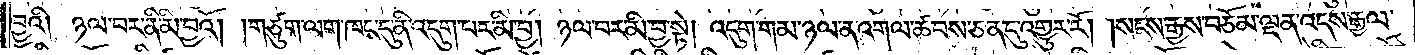བྱའི། ཉལ་བར་ནི་མི་བྱའོ། །གཙུག་ལག་ཁང་དུ་ནི་འདུག་པར་མི་བྱ། ཉལ་བར་མི་བྱ་སྟེ། འདུག་གམ་ཉལ་ན་འགལ་ཚབས་ཅན་དུ་འགྱུར་རོ།    །སངས་རྒྱས་བཅོམ་ལྡན་འདས་རྒྱལ་
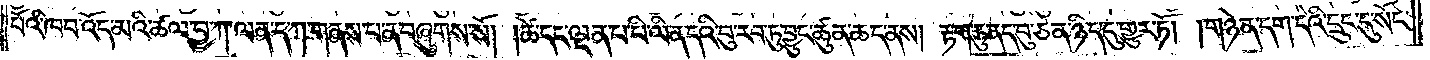པོའི་ཁབ་འོད་མའི་ཚལ་བྱ་ཀ་ལན་ད་ཀ་གནས་པ་ན་བཞུགས་སོ། །ཚེ་དང་ལྡན་པ་པི་ལིན་དའི་བུ་རབ་ཏུ་བྱུང་ཚུན་ཆད་ནས། རྟག་ཏུ་ནད་བུ་ཅན་ཉིད་དུ་གྱུར་ཏོ། །གཉེན་དག་དེའི་དྲུང་དུ་སོང་
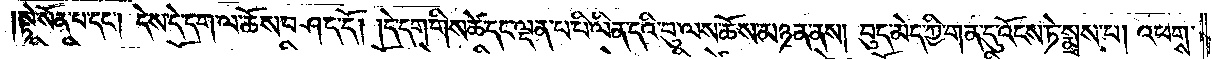སྟེ་སོན་པ་དང༌། དེས་དེ་དག་ལ་ཆོས་བཤད་དོ། །དེ་དག་གིས་ཚེ་དང་ལྡན་པ་པི་ལིན་དའི་བུ་ལས་ཆོས་མཉན་ནས། བུད་མེད་ཀྱི་གན་དུ་འོངས་ཏེ་སྨྲས་པ། འཕགས་
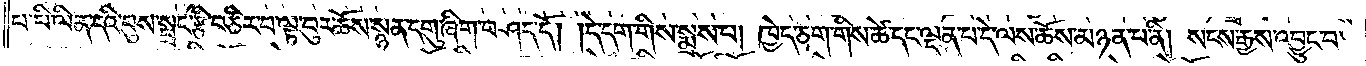པ་པི་ལིན་དའི་བུས་སྦྲང་རྩི་བཙིར་བ་ལྟ་བུར་ཆོས་སྙན་དགུ་ཞིག་བཤད་དོ། །དེ་དག་གིས་སྨྲས་པ། ཁྱེད་ཅག་གིས་ཚེ་དང་ལྡན་པ་དེ་ལས་ཆོས་མཉན་པ་ནི། སངས་རྒྱས་འབྱུང་བ་
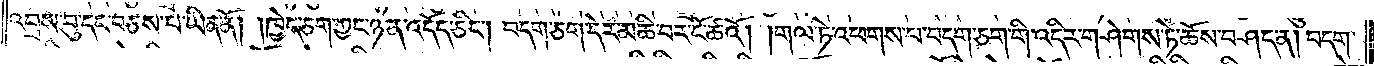འབྲས་བུ་དང་བཅས་པ་ཡིན་ནོ། །ཁྱེད་ཅག་ཀྱང་ཉན་འདོད་ཅིང༌། བདག་ཅག་དེར་མཆི་བར་ངོ་ཚའོ། །གལ་ཏེ་འཕགས་པ་བདག་ཅག་གི་འདིར་གཤེགས་ཏེ་ཆོས་བཤད་ན། བདག་
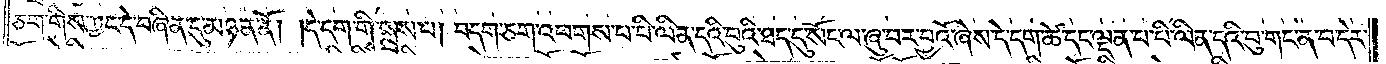ཅག་གིས་ཀྱང་དེ་བཞིན་དུ་མཉན་ནོ། །དེ་དག་གི་སྨྲས་པ། བདག་ཅག་འཕགས་པ་པི་ལིན་དའི་བུའི་ཐད་དུ་སོང་ལ་ཞུ་བར་བྱའོ་ཞེས་དེ་དག་ཚེ་དང་ལྡན་པ་པི་ལིན་དའི་བུ་གང་ན་བ་དེར་
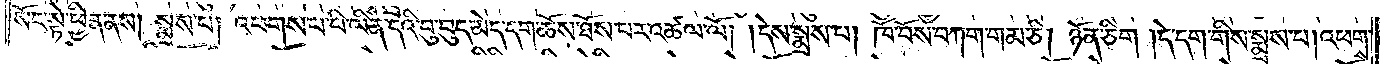སོང་སྟེ་ཕྱིན་ནས། སྨྲས་པ། འཕགས་པ་པི་ལིན་དའི་བུ་བུད་མེད་དག་ཆོས་ཐོས་པར་འཚལ་ལོ། །དེས་སྨྲས་པ། ཁོ་བོས་བཀག་གམ་ཅི། ཉོན་ཅིག །དེ་དག་གིས་སྨྲས་པ། འཕགས་
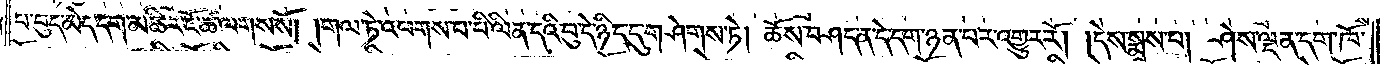པ་བུད་མེད་དག་མཆིར་ངོ་ཚ་ལགས་སོ། །གལ་ཏེ་འཕགས་པ་པི་ལིན་དའི་བུ་དེ་ཉིད་དུ་གཤེགས་ཏེ། ཆོས་བཤད་ན་དེ་དག་ཉན་པར་འགྱུར་རོ། །དེས་སྨྲས་པ། ཤེས་ལྡན་དག་ཁོ་
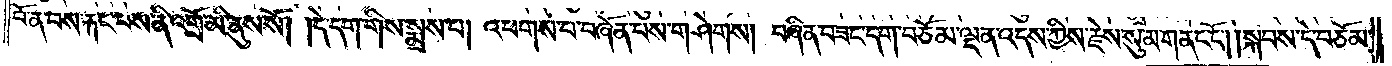བོ་ན་བས་རྐང་པས་ནི་འགྲོ་མི་ནུས་སོ། །དེ་དག་གིས་སྨྲས་པ། འཕགས་པ་བཞོན་པས་གཤེགས། བཞིན་བཟང་དག་བཅོམ་ལྡན་འདས་ཀྱིས་རྗེས་སུ་མ་གནང་ངོ༌། །སྐབས་དེ་བཅོམ་
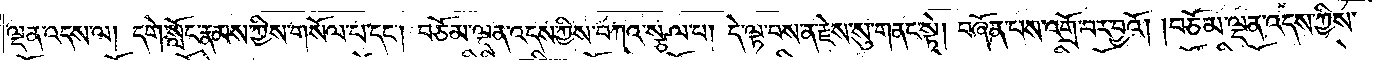ལྡན་འདས་ལ། དགེ་སློང་རྣམས་ཀྱིས་གསོལ་པ་དང༌། བཅོམ་ལྡན་འདས་ཀྱིས་བཀའ་སྩལ་པ། དེ་ལྟ་བས་ན་རྗེས་སུ་གནང་སྟེ། བཞོན་པས་འགྲོ་བར་བྱའོ། །བཅོམ་ལྡན་འདས་ཀྱིས་
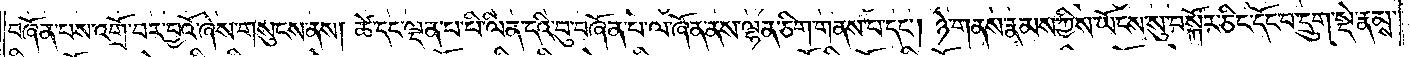བཞོན་པས་འགྲོ་བར་བྱའོ་ཞེས་གསུངས་ནས། ཚེ་དང་ལྡན་པ་པི་ལིན་དའི་བུ་བཞོན་པ་ལ་ཞོན་ནས་ལྷན་ཅིག་གནས་པ་དང༌། ཉེ་གནས་རྣམས་ཀྱིས་ཡོངས་སུ་བསྐོར་ཅིང་དོང་བ་དྲུག་སྡེ་རྣམས་
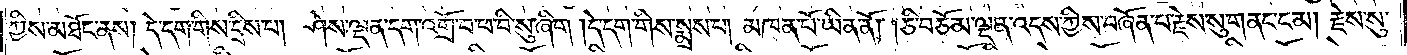ཀྱིས་མཐོང་ནས། དེ་དག་གིས་དྲིས་པ། ཤེས་ལྡན་དག་འགྲོ་བ་ཕ་བི་སུ་ཞིག །དེ་དག་གིས་སྨྲས་པ། མཁན་པོ་ཡིན་ནོ། །ཅི་བཅོམ་ལྡན་འདས་ཀྱིས་བཞོན་པ་རྗེས་སུ་གནང་ངམ། རྗེས་སུ་
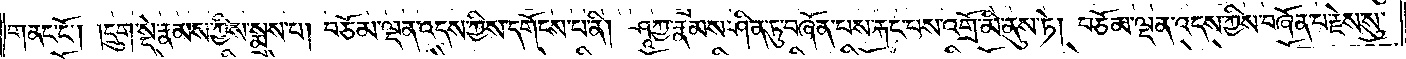གནང་ངོ༌། །དྲུག་སྡེ་རྣམས་ཀྱིས་སྨྲས་པ། བཅོམ་ལྡན་འདས་ཀྱིས་དགོངས་པ་ནི། ཤཱཀྱ་རྣམས་ཤིན་ཏུ་བཞོན་པས་རྐང་པས་འགྲོ་མི་ནུས་ཏེ། བཅོམ་ལྡན་འདས་ཀྱིས་བཞོན་པ་རྗེས་སུ་
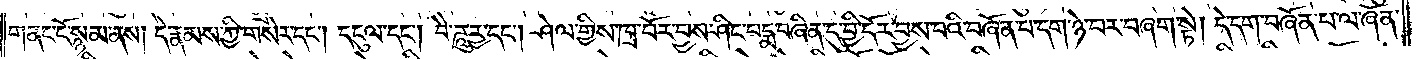གནང་ངོ་སྙམ་ནས། དེ་རྣམས་ཀྱི་གསེར་དང༌། དངུལ་དང༌། བཻ་ཌཱུརྱ་དང༌། ཤེལ་གྱིས་ཁྲ་བོར་བྱས་ཤིང་པདྨ་བཞིན་དུ་བྱི་དོར་བྱས་པའི་བཞོན་པ་དག་ཉེ་བར་བཞག་སྟེ། དེ་དག་བཞོན་པ་ལ་ཞོན་
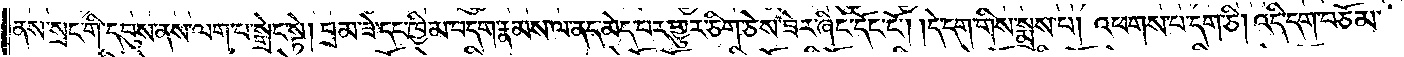ནས་སྲང་གི་དབུས་ནས་ལག་པ་སྒྲེང་སྟེ། བྲམ་ཟེ་དང་ཁྱིམ་བདག་རྣམས་ལ་ནད་མེད་པར་གྱུར་ཅིག་ཅེས་ཟེར་ཞིང་དོང་ངོ༌། །དེ་དག་གིས་སྨྲས་པ། འཕགས་པ་དག་ཅི། འདི་དག་བཅོམ་
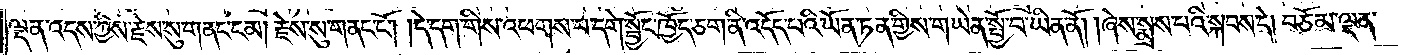ལྡན་འདས་ཀྱིས་རྗེས་སུ་གནང་ངམ། རྗེས་སུ་གནང་ངོ༌། །དེ་དག་གིས་འཕགས་པ་དགེ་སྦྱོང་ཁྱོད་ཅག་ནི་འདོད་པའི་ཡོན་ཏན་གྱིས་གཡེན་སྤྱོ་བ་ཡིན་ནོ། །ཞེས་སྨྲས་པའི་སྐབས་དེ། བཅོམ་ལྡན་
